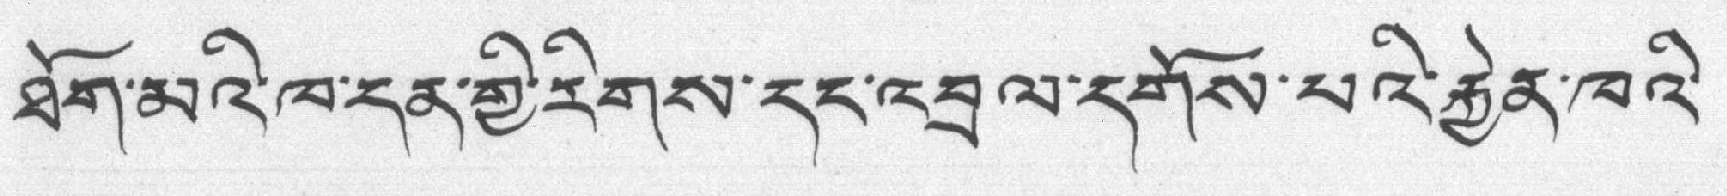ཐོག་མའི་ཁ་དན་གྱི་རིགས་དང་འབྲེལ་དགོས་པའི་རྐྱེན་ཁའ་
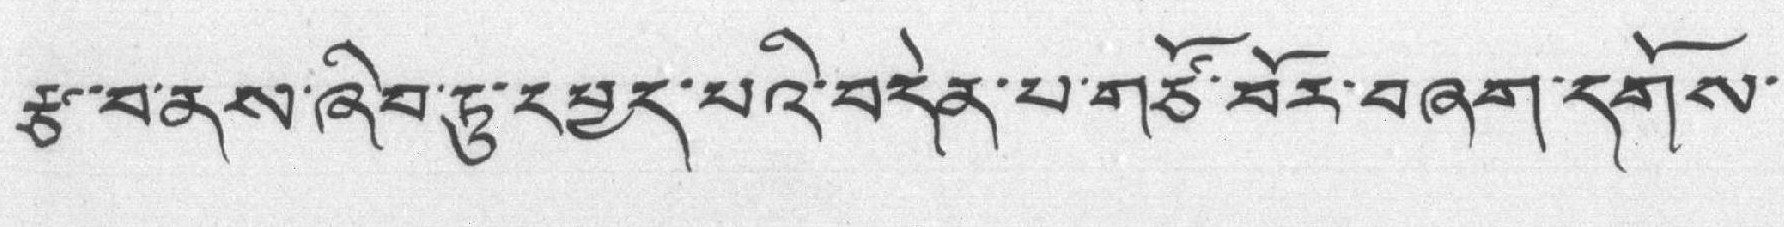རྩ་བ་ནས་ཞིབ་ཏུ་དཔྱད་པའི་བདེན་པ་གཙོ་བོར་བཞག་དགོས་
